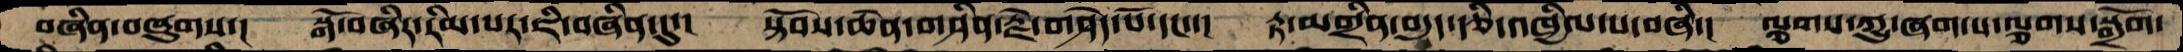བཞིན་བཞུགས་།  སྒོ་བཞིར་རིམ་པར་ཇི་བཞིན་དུ་།  སྟོབས་ཆེན་གཤིན་རྗེ་གཤེད་པོ་དང་་།  རྟ་མགྲིན་བདུད་རྩི་འཁྱིལ་པ་བཞི་།  ལྕགས་ཀྱུ་ཞག་པ་ལྕགས་སྒྲོག་
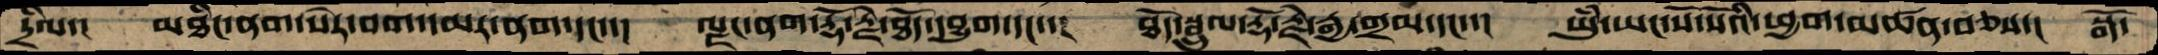དྲིལ་།   མཐིང་ནག་སེར་བག་དམར་ནག་དང་་།  ལྗང་ནག་རྡོ་རྗེ་ཐོད་དབྱུག་དང་་།  ཐོད་སྦྲུལ་རྡོ་རྗེ་རྒྱ་གྲམ་དང་་།  ཡུཾ་ཡང་སོ་སོའི་ཕྱག་མཚན་བཅས་།  སྒོ་
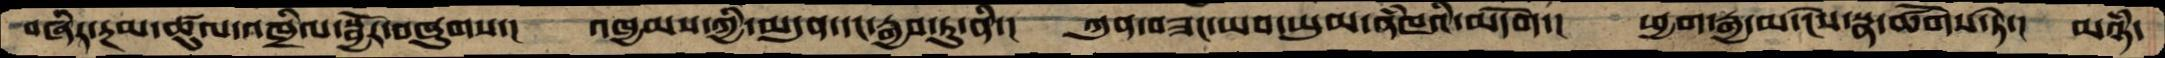བཞིར་རྔམ་ཚུལ་འཁྲིལ་སྦྱོར་བཞུགས་།  འཁྱམས་ཀྱི་མདུན་དང་རྒྱབ་ཏུ་ནི་།  ཀུན་བཟང་ཡབ་ཡུམ་ནཾཁའི་མདོག་།  ཕྱག་རྒྱ་མ་ངེས་སྣ་ཚོགས་ཏེ་།  མཉཾ་
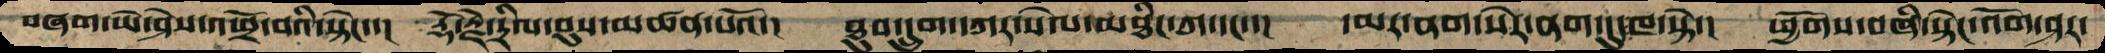བཞག་ཡེ་ཤེས་འཕྲོ་བའི་སྟེང་་།  རྡོ་རྗེ་དྲིལ་བུས་མཚན་པའོ་།   ཐུབ་དྲུག་དཀར་སེལ་མཐིང་ཀ་དང་་།  དམར་ནག་སེར་ནག་དུ་ཁ་སྟེ་།  ཕྱོགས་བཞི་སྟེང་འོག་ཤར་
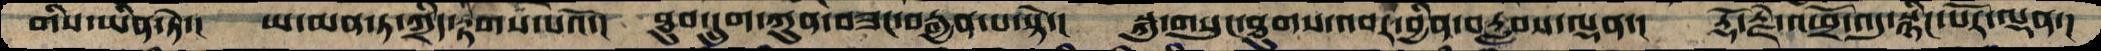གིས་ཡིན་ཏེ་།  ཡ་མན་ཏ་ཀྲིད་རྟགས་པའོ་།  ཐུབ་དྲུག་ཀུན་བཟང་བརྒྱན་པ་སྟེ་།  སྐུ་གསུང་ཐུགས་འབར་བྱིན་བརླབས་ལྡན་།  རྡོ་རྗེ་འཕྲོ་འདུ་སྙིང་པོར་ལྡན་།
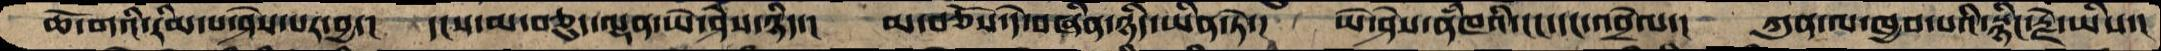ཆོ་གའི་རིམ་པ་ཤེས་པར་བྱ་།  དངས་མ་བཅུད་ལྡན་ཡེ་ཤེས་ཉིད་།  མ་བཅོས་དེ་བཞིན་ཉིད་ཡིན་ཏེ་།  ཡེ་ཤེས་ནཾཁའི་ངང་དང་འབྲེལ་།  ཀུན་ལ་ཁྱབ་པའི་སྙིང་རྗེ་ཡིས་།
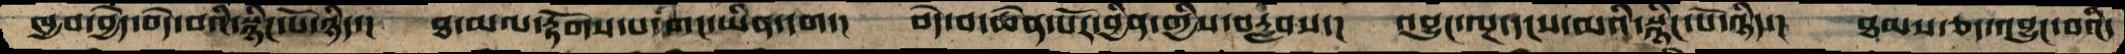ཁྱབ་བྱེད་བདེ་བའི་སྙིང་པོ་ཉིད་།  ཐ་མལ་རྟོགས་པ་གང་ཡིན་དག་།  བདེ་བ་ཆེན་པོར་བྱིན་གྱིས་བརླབས་།  འབྱུང་ལྔ་དངས་མའི་སྙིང་པོ་ཉིད་།  ཐམས་ཅད་འབྱུང་བའི་
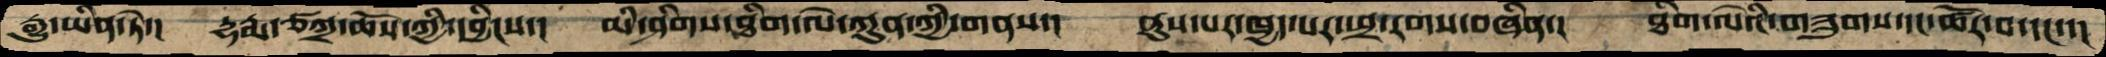རྒྱུ་ཡིན་ཏེ་།  དྷརྨ་ཙཀྲ་ཆོས་ཀྱི་དབྱིངས་།  མི་ཤིགས་ཐིག་ལེ་ཀུན་ཀྱི་གནས་།  ནུས་པར་ཁྱད་པར་ཕྲ་རགས་བཞིན་།  ཐིག་ལེའི་གཟུགས་དང་ཚོར་བ་དང་་།
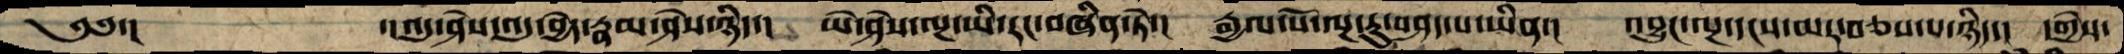༄༅་།          ་།འདུ་ཤེས་འདུ་བྱེད་རྣམ་ཤེས་ཉིད་།  ཡེ་ཤེས་ལྔ་ཡི་རང་བཞིན་ཏེ་།  རྒྱལ་པོ་ལྔ་རུ་བཤད་པ་ཡིན་།  འབྱུང་ལྔ་དངས་མར་བཅས་པ་ཉིད་།  དགྱེས་
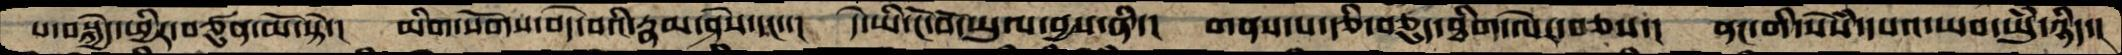པ་བསྐྱེད་ཕྱིར་བཙུན་མོ་སྟེ་།  མིག་སོགས་བདེ་བའི་རྣམ་ཤེས་དང་་།  དེ་ཡི་ངོ་བོ་ཡུལ་བྱས་ནི་།  གནས་པ་རྩི་བཅུད་ཐིག་ལེར་བཅས་།  ནང་གི་སེཾས་དཔའ་ཡབ་ཡུཾ་ཉིད་།
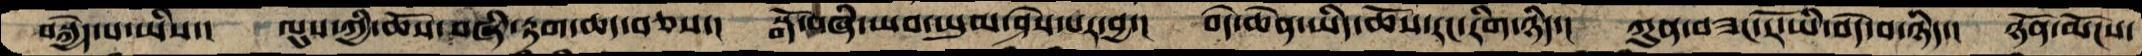བསྐྱེད་པ་ཡིས་།   ལུས་ཀྱི་ཆོས་བཞི་རྟག་ཆད་བཅས་།  སྒོ་བཞི་ཡབ་ཡུམ་ཤེས་པར་བྱ་།  བདེ་ཆེན་ཡིད་ཆོས་རང་རིག་ཉིད་།  ཀུན་བཟང་རོ་ཡི་བདེ་བ་ཉིད་།  ཉོན་མོངས་
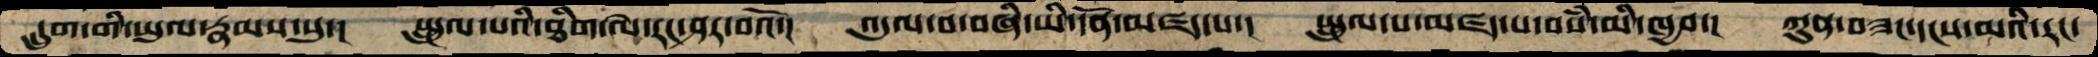དྲུག་གི་ཡུལ་རྣམས་སུ་།  སྤྲུལ་པའི་ཐིག་ལེ་རང་ཤར་བའོ་།  འདུལ་བ་བཞི་ཡི་དོན་མཛད་པ་།  སྤྲུལ་པ་མཛད་པ་བསཾ་མི་ཁྱབ་།  ཀུན་བཟང་དངས་མའི་རང་
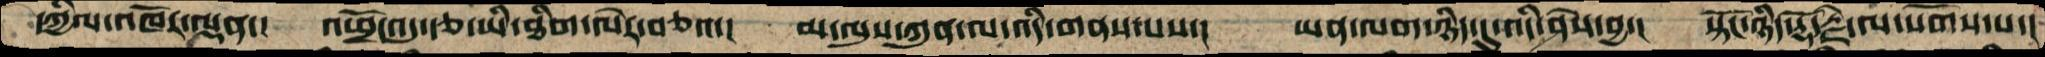དཀྱིལ་འཁོར་ལྡན་།  འཕྲོ་འདུ་རྩ་ཡི་ཐིག་ལེར་བཅའ་།  མ་ལུས་ཀུན་ལ་འདི་གནས་པས་།  ཡན་ལག་ཉིད་དུ་འདི་ཤེས་བྱ་།  སྟོང་ཉིད་རྡོ་རྗེ་ལ་སོགས་པ་།
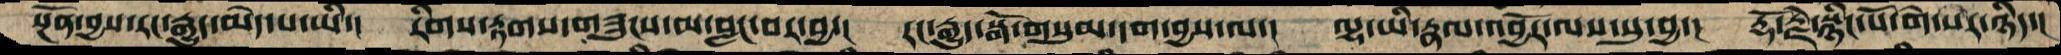སྔོན་བྱས་རང་རྒྱུད་མེད་པ་ཡི་།  རིགས་རྟགས་གཟུངས་མ་བླང་བར་བྱ་།  རང་རྒྱུད་སྒོ་གསུམ་དག་བྱས་ལ་།  ལྷ་ཡི་རྣལ་འབྱོར་ལས་སུ་བྱ་།  རྡོ་རྗེ་སྙིང་པོ་གེ་སར་ཉིད་།
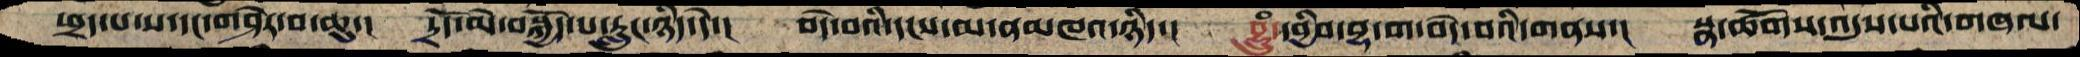ཕྲད་པ་ས་དང་གཤེར་བ་ཆུ་།  དྲོད་མེ་བསྐྱོད་པ་རླུང་ཉིད་དེ་།  བདེ་བའི་དངས་མ་ནམཁའ་ཉིད་།  བྷྲུཾ་བྱིབ་བྷ་ག་བདེ་བའི་གནས་།  སྣ་ཚོགས་འདུས་པའི་གཞལ་
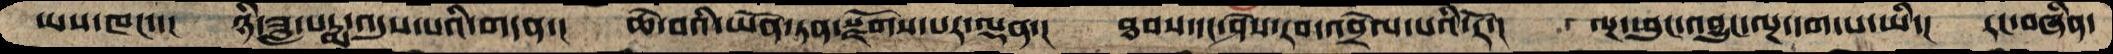ཡས་ཁང་་།  ཉི་ཟླ་པདྨ་འདུས་པའི་གདན་།  ཆེ་བའི་ཡོན་ཏན་སྫོགས་པར་ལྡན་།  ཐབས་དང་ཤེ་སརབ་འབྲེལ་པའི་རོ་།  ལྔ་ཕུང་འབྱུང་ལྔ་དག་པ་ཡི་།  རང་བཞིན་
